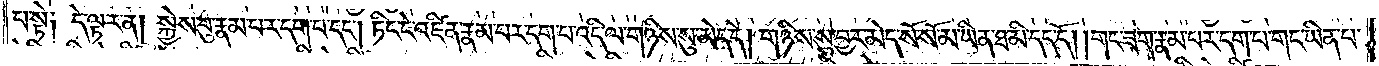པ་སྟེ༑ དེ་ལྟར་ན། སྐྱེས་བུ་རྣམ་པར་དག་པ་དང༌། ཏིང་ངེ་འཛིན་རྣམ་པར་དག་པ་འདི་ལ་གཉིས་སུ་མེད་དེ། གཉིས་སུ་བྱར་མེད་སོ་སོ་མ་ཡིན་ཐ་མི་དད་དོ། །གང་ཟག་རྣམ་པར་དག་པ་གང་ཡིན་པ་
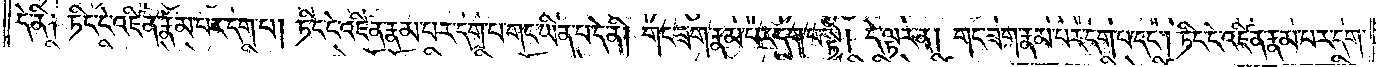དེ་ནི༑ ཏིང་ངེ་འཛིན་རྣམ་པར་དག་པ། ཏིང་ངེ་འཛིན་རྣམ་པར་དག་པ་གང་ཡིན་པ་དེ་ནི། གང་ཟག་རྣམ་པར་དག་པ་སྟེ། དེ་ལྟར་ན། གང་ཟག་རྣམ་པར་དག་པ་དང༌། ཏིང་ངེ་འཛིན་རྣམ་པར་དག་
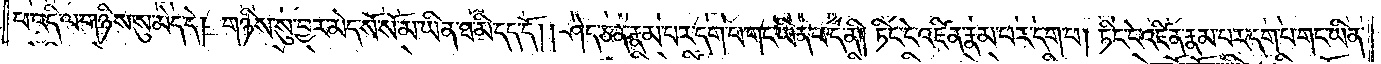པ་འདི་ལ་གཉིས་སུ་མེད་དེ། གཉིས་སུ་བྱར་མེད་སོ་སོ་མ་ཡིན་ཐ་མི་དད་དོ། །ཤེད་ཅན་རྣམ་པར་དག་པ་གང་ཡིན་པ་དེ་ནི། ཏིང་ངེ་འཛིན་རྣམ་པར་དག་པ། ཏིང་ངེ་འཛིན་རྣམ་པར་དག་པ་གང་ཡིན་
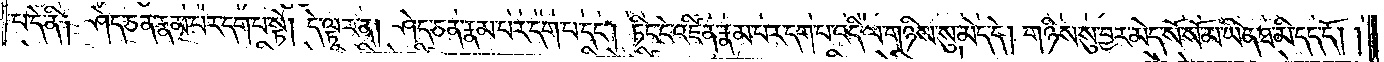པ་དེ་ནི་ཤེད་ཅན་རྣམ་པར་དག་པ་སྟེ། དེ་ལྟར་ན། ཤེད་ཅན་རྣམ་པར་དག་པ་དང༌། ཏིང་ངེ་འཛིན་རྣམ་པར་དག་པ་འདི་ལ་གཉིས་སུ་མེད་དེ། གཉིས་སུ་བྱར་མེད་སོ་སོ་མ་ཡིན་ཐ་མི་དད་དོ། །
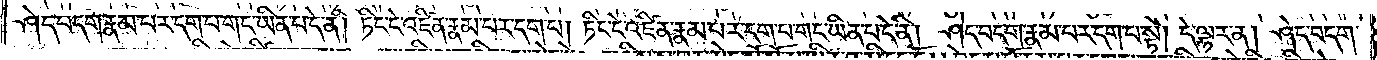ཤེད་བདག་རྣམ་པར་དག་པ་གང་ཡིན་པ་དེ་ནི། ཏིང་ངེ་འཛིན་རྣམ་པར་དག་པ། ཏིང་ངེ་འཛིན་རྣམ་པར་དག་པ་གང་ཡིན་པ་དེ་ནི། ཤེད་བདག་རྣམ་པར་དག་པ་སྟེ། དེ་ལྟར་ན། ཤེད་བདག་
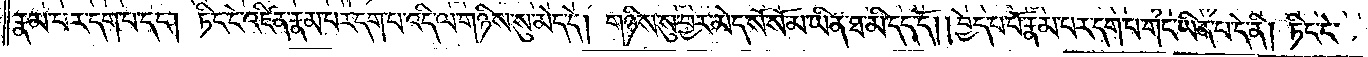རྣམ་པར་དག་པ་དང༌། ཏིང་ངེ་འཛིན་རྣམ་པར་དག་པ་འདི་ལ་གཉིས་སུ་མེད་དེ། གཉིས་སུ་བྱར་མེད་སོ་སོ་མ་ཡིན་ཐ་མི་དད་དོ། །བྱེད་པ་པོ་རྣམ་པར་དག་པ་གང་ཡིན་པ་དེ་ནི། ཏིང་ངེ་
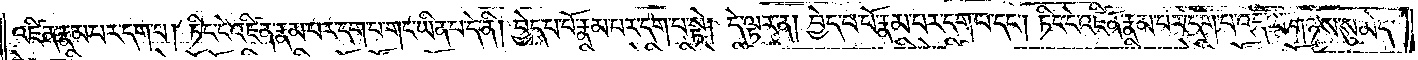འཛིན་རྣམ་པར་དག་པ། ཏིང་ངེ་འཛིན་རྣམ་པར་དག་པ་གང་ཡིན་པ་དེ་ནི། བྱེད་པ་པོ་རྣམ་པར་དག་པ་སྟེ། དེ་ལྟར་ན། བྱེད་པ་པོ་རྣམ་པར་དག་པ་དང༌། ཏིང་ངེ་འཛིན་རྣམ་པར་དག་པ་འདི་ལ་གཉིས་སུ་མེད་
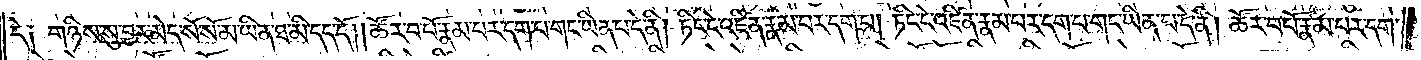དེ༑ གཉིས་སུ་བྱར་མེད་སོ་སོ་མ་ཡིན་ཐ་མི་དད་དོ། །ཚོར་བ་པོ་རྣམ་པར་དག་པ་གང་ཡིན་པ་དེ་ནི། ཏིང་ངེ་འཛིན་རྣམ་པར་དག་པ། ཏིང་ངེ་འཛིན་རྣམ་པར་དག་པ་གང་ཡིན་པ་དེ་ནི། ཚོར་བ་པོ་རྣམ་པར་དག་
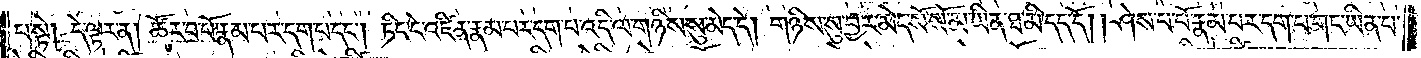པ་སྟེ། དེ་ལྟར་ན། ཚོར་བ་པོ་རྣམ་པར་དག་པ་དང༌། ཏིང་ངེ་འཛིན་རྣམ་པར་དག་པ་འདི་ལ་གཉིས་སུ་མེད་དེ། གཉིས་སུ་བྱར་མེད་སོ་སོ་མ་ཡིན་ཐ་མི་དད་དོ། །ཤེས་པ་པོ་རྣམ་པར་དག་པ་གང་ཡིན་པ་
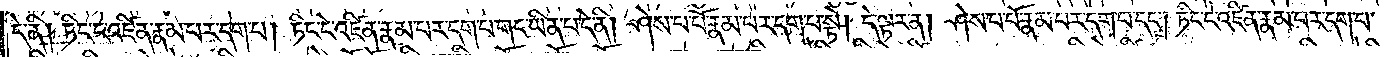དེ་ནི། ཏིང་ངེ་འཛིན་རྣམ་པར་དག་པ། ཏིང་ངེ་འཛིན་རྣམ་པར་དག་པ་གང་ཡིན་པ་དེ་ནི། ཤེས་པ་པོ་རྣམ་པར་དག་པ་སྟེ། དེ་ལྟར་ན། ཤེས་པ་པོ་རྣམ་པར་དག་པ་དང༌། ཏིང་ངེ་འཛིན་རྣམ་པར་དག་པ་
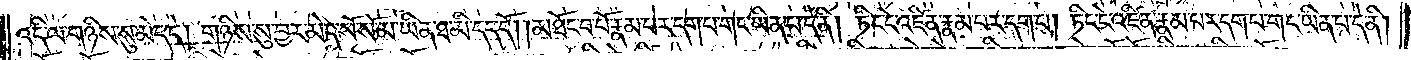འདི་ལ་གཉིས་མེད་དེ། གཉིས་སུ་བྱར་མེད་སོ་སོ་མ་ཡིན་ཐ་མི་དད་དོ། །མཐོང་བ་པོ་རྣམ་པར་དག་པ་གང་ཡིན་པ་དེ་ནི། ཏིང་ངེ་འཛིན་རྣམ་པར་དག་པ། ཏིང་ངེ་འཛིན་རྣམ་པར་དག་པ་གང་ཡིན་པ་དེ་ནི།
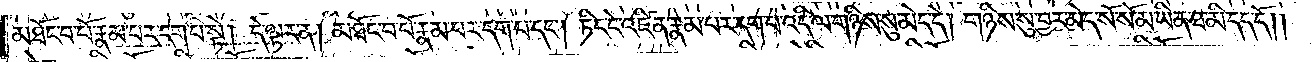མཐོང་བ་པོ་རྣམ་པར་དག་པ་སྟེ། དེ་ལྟར་ན། མཐོང་བ་པོ་རྣམ་པར་དག་པ་དང༌། ཏིང་ངེ་འཛིན་རྣམ་པར་དག་པ་འདི་ལ་གཉིས་སུ་མེད་དེ། གཉིས་སུ་བྱར་མེད་སོ་སོ་མ་ཡིན་ཐ་མི་དད་དོ༎
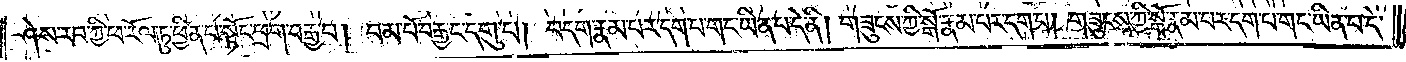ཤེས་རབ་ཀྱི་ཕ་རོལ་ཏུ་ཕྱིན་པ་སྟོང་ཕྲག་བརྒྱ་པ། །བམ་པོ་བརྒྱ་ང་དགུ་པ། །བདག་རྣམ་པར་དག་པ་གང་ཡིན་པ་དེ་ནི། གཟུངས་ཀྱི་སྒོ་རྣམ་པར་དག་པ། གཟུངས་ཀྱི་སྒོ་རྣམ་པར་དག་པ་གང་ཡིན་པ་དེ་
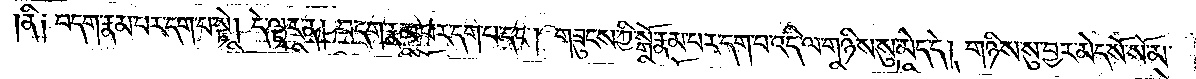ནི། བདག་རྣམ་པར་དག་པ་སྟེ། དེ་ལྟར་ན། བདག་རྣམ་པར་དག་པ་དང༌། གཟུངས་ཀྱི་སྒོ་རྣམ་པར་དག་པ་འདི་ལ་གཉིས་སུ་མེད་དེ། གཉིས་སུ་བྱར་མེད་སོ་སོ་མ་
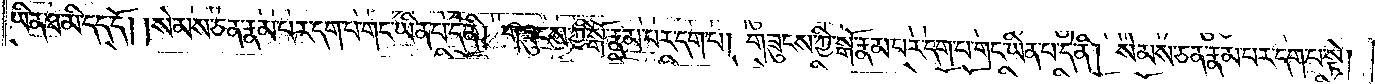ཡིན་ཐ་མི་དད་དོ། །སེམས་ཅན་རྣམ་པར་དག་པ་གང་ཡིན་པ་དེ་ནི། གཟུངས་ཀྱི་སྒོ་རྣམ་པར་དག་པ། གཟུངས་ཀྱི་སྒོ་རྣམ་པར་དག་པ་གང་ཡིན་པ་དེ་ནི། སེམས་ཅན་རྣམ་པར་དག་པ་སྟེ།
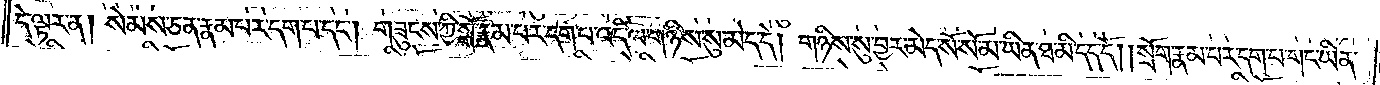དེ་ལྟར་ན། སེམས་ཅན་རྣམ་པར་དག་པ་དང༌། གཟུངས་ཀྱི་སྒོ་རྣམ་པར་དག་པ་འདི་ལ་གཉིས་སུ་མེད་དེ། གཉིས་སུ་བྱར་མེད་སོ་སོ་མ་ཡིན་ཐ་མི་དད་དོ། །སྲོག་རྣམ་པར་དག་པ་གང་ཡིན་
